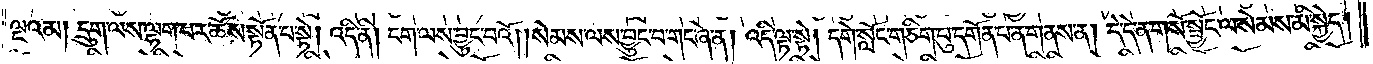ལྔའམ། དྲུག་ལས་ལྷག་པར་ཆོས་སྟོན་པ་སྟེ། འདི་ནི། ངག་ལས་བྱུང་བའོ། །སེམས་ལས་བྱུང་བ་གང་ཞེ་ན། འདི་ལྟ་སྟེ། དགེ་སློང་གཅིག་པུ་དགོན་པ་ན་གནས་ན། དེ་དེ་ན་གསོ་སྦྱོང་ལ་སེམས་མི་སྐྱེད།
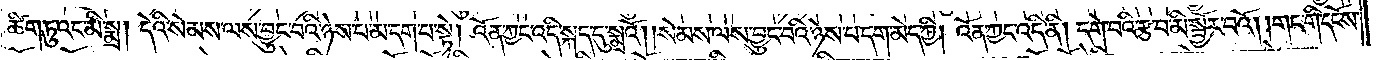ཚིག་ཏུའང་མི་སྨྲ། དེའི་སེམས་ལས་བྱུང་བའི་ཉེས་པ་མ་དག་པ་སྟེ། འོན་ཀྱང་འདི་སྐད་དུ་སྨྲའོ། །སེམས་ལས་བྱུང་བའི་ཉེས་པ་དག་མེད་ཀྱི། འོན་ཀྱང་འདི་ནི། དགེ་བའི་རྩ་བ་མི་སྦྱོར་བའོ། །གང་གི་དངོས་
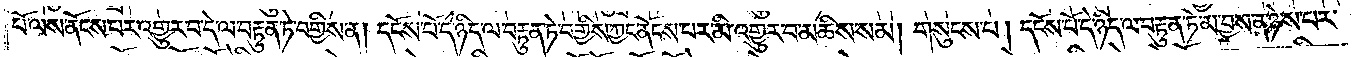པོ་ལས་ནོངས་པར་འགྱུར་བ་དེ་ལ་བརྟུན་ཏེ་བགྱིས་ན། དངོས་པོ་དེ་ཉིད་ལ་བརྟུན་ཏེ་བགྱིས་ཀྱང་ནོངས་པར་མི་འགྱུར་བ་མཆིས་སམ། གསུངས་པ། དངོས་པོ་དེ་ཉིད་ལ་བརྟུན་ཏེ་མ་བྱས་ན་ཉེས་པར་
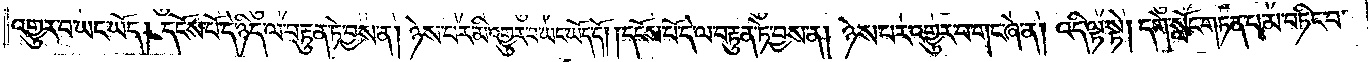འགྱུར་བ་ཡང་ཡོད། དངོས་པོ་དེ་ཉིད་ལ་བརྟུན་ཏེ་བྱས་ན། ཉེས་པར་མི་འགྱུར་བ་ཡང་ཡོད་དོ། །དངོས་པོ་དེ་ལ་བརྟུན་ཏེ་བྱས་ན། ཉེས་པར་འགྱུར་བ་གང་ཞེ་ན། འདི་ལྟ་སྟེ། དགེ་སློང་གཏན་པ་མ་བཏིང་བ་
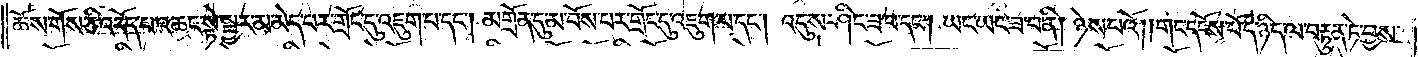ཆོས་གོས་ཅི་འདོད་པ་འཆང་སྟེ་སྦྱར་མ་མེད་པར་གྲོང་དུ་འཇུག་པ་དང༌། མགྲོན་དུ་མ་བོས་པར་གྲོང་དུ་འཇུག་པ་དང༌། འདུས་ཤིང་ཟ་བ་དང༌། ཡང་ཡང་ཟ་བ་ནི། ཉེས་པའོ། །གང་དངོས་པོ་དེ་ཉིད་ལ་བརྟུན་ཏེ་བྱས་
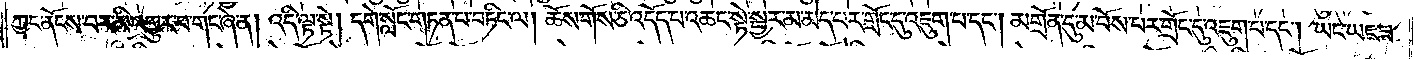ཀྱང་ནོངས་པར་མི་འགྱུར་བ་གང་ཞེ་ན། འདི་ལྟ་སྟེ། དགེ་སློང་གཏན་པ་བཏིང་ལ། ཆོས་གོས་ཅི་འདོད་པ་འཆང་སྟེ་སྦྱར་མ་མེད་པར་གྲོང་དུ་འཇུག་པ་དང༌། མགྲོན་དུ་མ་བོས་པར་གྲོང་དུ་འཇུག་པ་དང༌། ཡང་ཡང་ཟ་
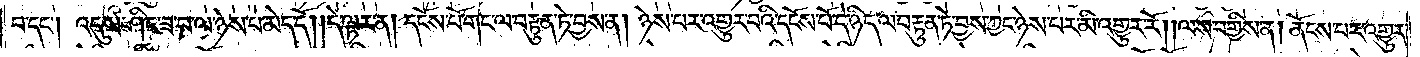བ་དང༌། འདུས་ཤིང་ཟ་བ་ལ་ཉེས་པ་མེད་དོ། །དེ་ལྟར་ན། དངོས་པོ་གང་ལ་བརྟུན་ཏེ་བྱས་ན། ཉེས་པར་འགྱུར་བའི་དངོས་པོ་དེ་ཉིད་ལ་བརྟུན་ཏེ་བྱས་ཀྱང་ཉེས་པར་མི་འགྱུར་རོ། །ལས་བགྱིས་ན། ནོངས་པར་འགྱུར་
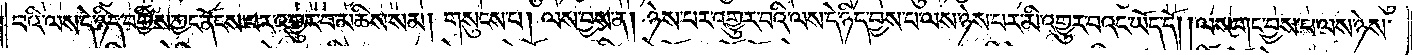བའི་ལས་དེ་ཉིད་བགྱིས་ཀྱང་ནོངས་པར་འགྱུར་བ་མཆིས་སམ། གསུངས་པ། ལས་བྱས་ན། ཉེས་པར་འགྱུར་བའི་ལས་དེ་ཉིད་བྱས་པ་ལས་ཉེས་པར་མི་འགྱུར་བའང་ཡོད་དོ། །ལས་གང་བྱས་པ་ལས་ཉེས་
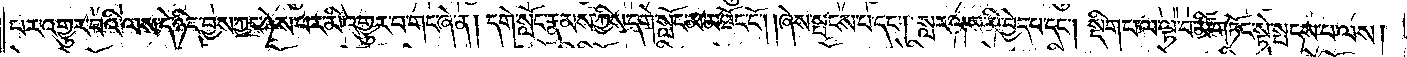པར་འགྱུར་བའི་ལས་དེ་ཉིད་བྱས་ཀྱང་ཉེས་པར་མི་འགྱུར་བ་གང་ཞེ་ན། དགེ་སློང་རྣམས་ཀྱིས་དགེ་སློང་མ་མཐོང་ངོ༌། །ཞེས་སྤངས་པ་དང༌། སླར་ལས་མི་བྱེད་པ་དང༌། སྡིག་པ་ལ་ལྟ་བ་མི་གཏོང་སྟེ་སྤངས་པ་ལས།
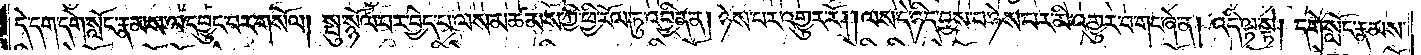དེ་དག་དགེ་སློང་རྣམས་ལ་དབྱུང་བར་གསོལ། སྤུ་སྙོལ་བར་བྱེད་པ་ལས་མཚམས་ཀྱི་ཕྱི་རོལ་ཏུ་འབྱིན་ན། ཉེས་པར་འགྱུར་རོ། །ལས་དེ་ཉིད་བྱས་པ་ཉེས་པར་མི་འགྱུར་བ་གང་ཞེ་ན། འདི་ལྟ་སྟེ། དགེ་སློང་རྣམས་
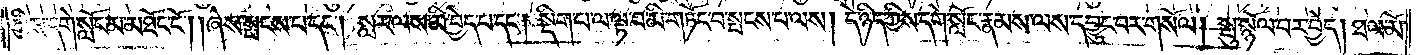ཀྱིས་དགེ་སློང་མ་མཐོང་ངོ༌། །ཞེས་སྤངས་པ་དང༌། སླར་ལས་མི་བྱེད་པ་དང༌། སྡིག་པ་ལ་ལྟ་བ་མི་གཏོང་བ་སྤངས་པ་ལས། དེ་ཉིད་ཀྱིས་དགེ་སློང་རྣམས་ལས་དབྱུང་བར་གསོལ། སྤུ་སྙོལ་བར་བྱེད། ཐལ་མོ་
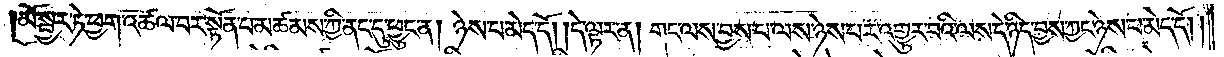མོ་སྦྱར་ཏེ་ཕྱག་འཚལ་བར་སྟོན་པ་མཚམས་ཀྱི་ནང་དུ་ཕྱུང་ན། ཉེས་པ་མེད་དོ། །དེ་ལྟར་ན། གང་ལས་བྱས་པ་ལས་ཉེས་པར་འགྱུར་པའི་ལས་དེ་ཉིད་བྱས་ཀྱང་ཉེས་པ་མེད་དོ། །
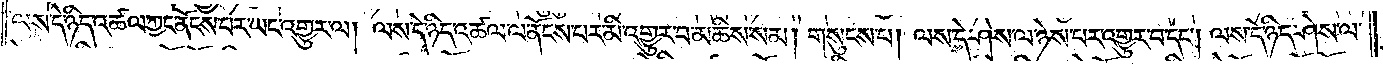ལས་དེ་ཉིད་འཚལ་ཀྱང་ནོངས་པར་ཡང་འགྱུར་ལ། ལས་དེ་ཉིད་འཚལ་ལ་ནོངས་པར་མི་འགྱུར་བ་མཆིས་སམ། གསུངས་པ། ལས་དེ་ཤེས་ལ་ཉེས་པར་འགྱུར་བ་དང༌། ལས་དེ་ཉིད་ཤེས་ལ་
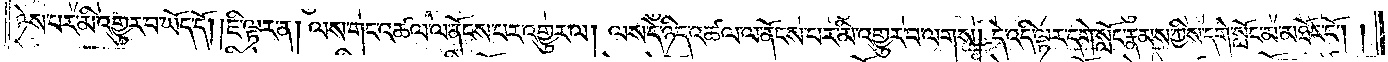ཉེས་པར་མི་འགྱུར་བ་ཡོད་དོ། །ཇི་ལྟར་ན། ལས་གང་འཚལ་ལ་ནོངས་པར་འགྱུར་ལ། ལས་དེ་ཉིད་འཚལ་ལ་ནོངས་པར་མི་འགྱུར་བ་ལགས། དེ་འདི་ལྟར་དགེ་སློང་རྣམས་ཀྱིས་དགེ་སློང་མ་མཐོང་ངོ༌། །
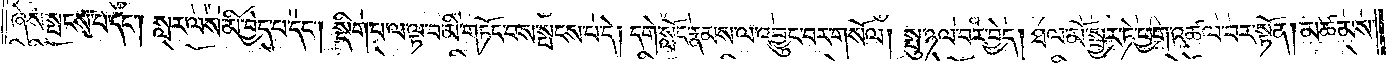ཞེས་སྤངས་པ་དང༌། སླར་ལས་མི་བྱེད་པ་དང༌། སྡིག་པ་ལ་ལྟ་བ་མི་གཏོང་བས་སྤངས་པ་དེ། དགེ་སློང་རྣམས་ལ་འབྱུང་བར་གསོལ། སྤུ་ཉལ་བར་བྱེད། ཐལ་མོ་སྦྱར་ཏེ་ཕྱག་འཚལ་བར་སྟོན། མཚམས་
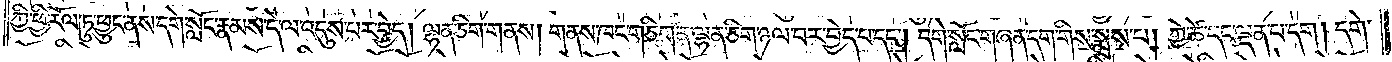ཀྱི་ཕྱི་རོལ་ཏུ་ཕྱུང་ནས་དགེ་སློང་རྣམས་དེ་ལ་འདུས་པར་བྱེད། ལྷན་ཅིག་གནས། གནས་ཁང་གཅིག་ན་ལྷན་ཅིག་ཉལ་བར་བྱེད་པ་དང༌། དགེ་སློང་གཞན་དག་གིས་སྨྲས་པ། ཀྱེ་ཚེ་དང་ལྡན་པ་དག། དགེ་
